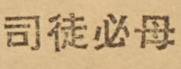司徒必母
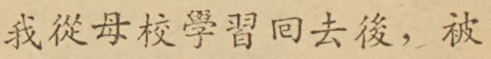我從母校學習囘去後，被
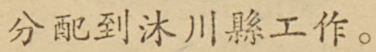分配到沐川縣工作。
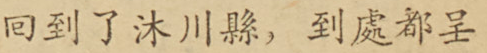囘到了沐川縣，到處都呈
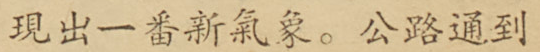現出一番新氣象。公路通到
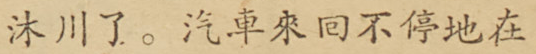沐川了。汽車來囘不停地在
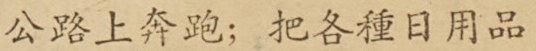公路上奔跑；把各種日用品
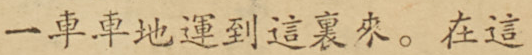一車車地運到這裏來。在這
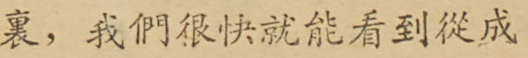裏，我們很快就能看到從成
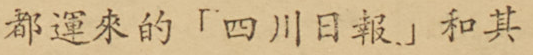都運來的「四川日報」和其
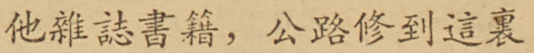他雜誌書籍，公路修到這裏
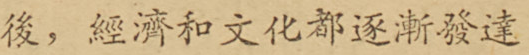後，經濟和文化都逐漸發達
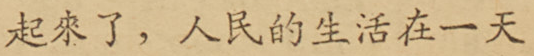起來了，人民的生活在一天
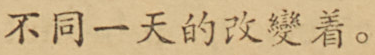不同一天的改變着。
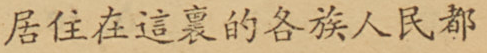居住在這裏的各族人民都
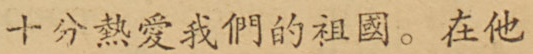十分熱愛我們的祖國。在他
